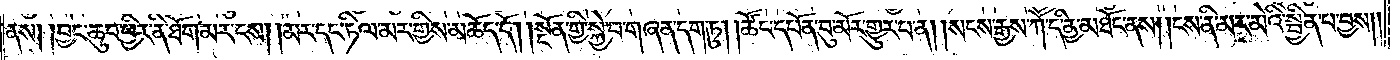ནས། །བྱང་ཆུབ་ཕྱིར་ནི་ཐོག་མར་ངས། །མར་དང་ཏིལ་མར་གྱིས་མཆོད་དོ། །སྔོན་གྱི་སྐྱེ་བ་གཞན་དག་ཏུ། །ཚོང་དཔོན་བུ་མོར་གྱུར་པ་ན། །སངས་རྒྱས་ཀཽ་དི་ནྱ་མཐོང་ནས། །ངས་ནི་མར་མེའི་སྦྱིན་པ་བྱས། །
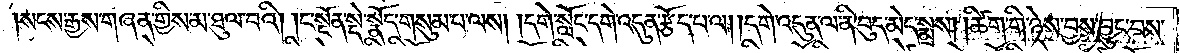སངས་རྒྱས་གཞན་གྱིས་མ་ཐུལ་བའི། །ང་སྔོན་སྡེ་སྣོད་གསུམ་པ་ལས། དགེ་སློང་དགེ་འདུན་རྩོད་པ་ལ། །དགེ་འདུན་ལ་ནི་བུད་མེད་སྨྲས། །ཚིག་གི་ཉེས་བྱས་བྱུང་བས་
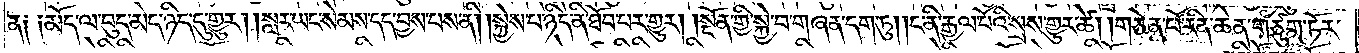ན༑ ༑མོད་ལ་བུད་མེད་ཉིད་དུ་གྱུར། །སླར་ཡང་སེམས་དད་བྱས་པས་ནི། །སྐྱེས་པ་ཉིད་ནི་ཐོབ་པར་གྱུར། །སྔོན་གྱི་སྐྱེ་བ་གཞན་དག་ཏུ། །ང་ནི་རྒྱལ་པོའི་སྲས་གྱུར་ཚེ། །གཅེན་པོ་རིན་ཆེན་གཙུག་ཏོར་
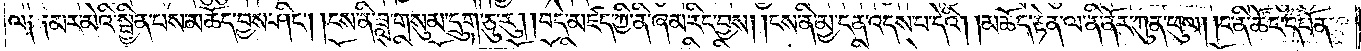ལ༑ ༑མར་མེའི་སྦྱིན་པས་མཆོད་བྱས་ཤིང༌། །ངས་ནི་ཟླ་གསུམ་དྲུག་ཅུ་རུ། །བདེ་མཛད་ཀྱི་ནི་ཞམ་རིང་བྱས། །ངས་ནི་མྱ་ངན་འདས་པ་དེའི། །མཆོད་རྟེན་ལ་ནི་ནོར་ཀུན་ཕུལ། །ང་ནི་ཚོང་དཔོན་
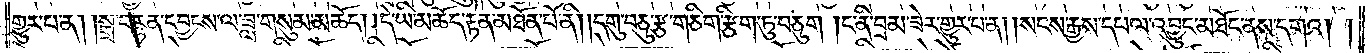གྱུར་པ་ན། །སྒྲ་བརྙན་དབྱངས་ལ་ཟླ་གསུམ་མཆོད། །དེ་ཡི་མཆོད་རྟེན་མཐོང་པོ་ནི། །དགུ་བཅུ་རྩ་གཅིག་རྩིག་ཏུ་བཅུག །ང་ནི་བྲམ་ཟེར་གྱུར་པ་ན། །སངས་རྒྱས་དཔལ་འབྱུང་མཐོང་ནས་དགའ། །
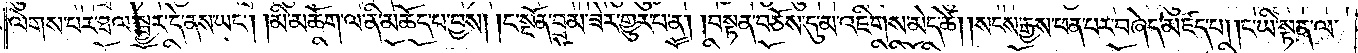ལེགས་པར་ཐལ་སྦྱར་དེ་ནས་ཡང༌། །མི་མཆོག་ལ་ནི་མཆོད་པ་བྱས། །ང་སྔོན་བྲམ་ཟེར་གྱུར་པ་ན། །བསྟན་བཅོས་དུ་མ་འཇིགས་མེད་ཚེ། །སངས་རྒྱས་ཕན་པར་བཞེད་མཛད་པ། །ང་ཡི་སྟན་ལ་
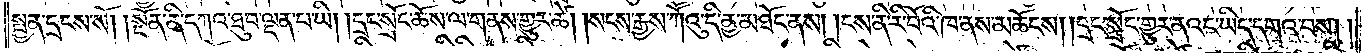སྤྱན་དྲངས་སོ། །སྔོན་ནི་དཀའ་ཐུབ་ལྡན་པ་ཡི། །དྲང་སྲོང་ཆོས་ལ་གནས་གྱུར་ཚེ། །སངས་རྒྱས་ཀཽའུ་དི་ནྱ་མཐོང་ནས། །ངས་ནི་རི་བོའི་ཁ་ནས་མཆོངས། །དྲང་སྲོང་གྱུར་ནའང་ཡིད་དགའ་བས༎
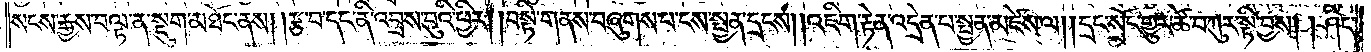སངས་རྒྱས་བལྟ་ན་སྡུག་མཐོང་ནས། །རྩ་བ་དང་ནི་འབྲས་བུའི་ཕྱིར། །བསྟི་གནས་བཞུགས་པ་ངས་སྤྱན་དྲངས། །འཇིག་རྟེན་འདྲེན་པ་སྤྱན་མཛེས་ལ། །དྲང་སྲོང་གྱུར་ཚེ་བཀུར་སྟི་བྱས། །ཤིང་
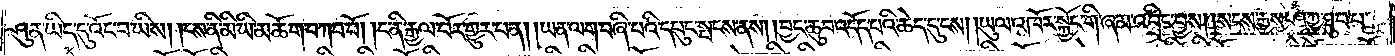ཤུན་ཡིད་དུ་འོང་བ་ཡིས། །ངས་ནི་མི་ཡི་མཆོག་བཀབ་བོ། །ང་ནི་རྒྱལ་པོར་གྱུར་པ་ན། །ཡན་ལག་བཞི་པའི་དཔུང་སྤངས་ནས། །བྱང་ཆུབ་འདོད་པའི་ཆེད་དུ་ངས། །ཡུལ་འཁོར་སྐྱོང་གི་ཞམ་འབྲིང་བྱས། །སངས་རྒྱས་ཤཱཀྱ་ཐུབ་པ་
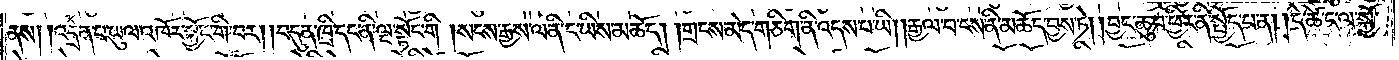ནས། །འདྲེན་པ་ཡུལ་འཁོར་སྐྱོང་གི་བར། །བདུན་ཁྲི་དང་ནི་ལྔ་སྟོང་གི། །སངས་རྒྱས་ལ་ནི་ང་ཡིས་མཆོད། །གྲངས་མེད་གཅིག་ནི་འདས་པ་ཡི། །རྒྱལ་བ་ངས་ནི་མཆོད་བྱས་ཏེ། །བྱང་ཆུབ་ཕྱིར་ནི་སྤྱོད་པ་ན། །དེ་ཚེ་ང་ལ་སྐྱོ་
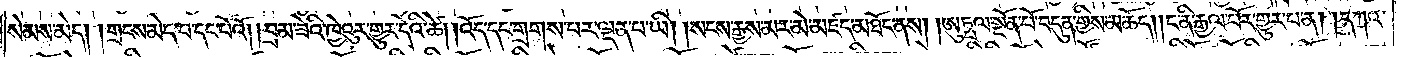སེམས་མེད། །གྲངས་མེད་པ་དང་པོའོ། །བྲམ་ཟེའི་ཁྱེའུར་གྱུར་དེའི་ཚེ། །འོད་དང་གྲགས་པར་ལྡན་པ་ཡི། །སངས་རྒྱས་མར་མེ་མཛད་མཐོང་ནས། །ཨུཏྤལ་སྔོན་པོ་བདུན་གྱིས་མཆོད། །ང་ནི་རྒྱལ་པོར་གྱུར་པ་ན། །དཀའ་
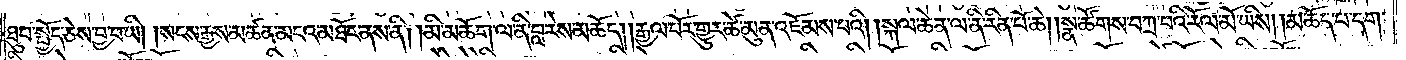ཐུབ་སྤྱོད་ཅེས་བྱ་བ་ཡི། །སངས་རྒྱས་མཚན་མངའ་མཐོང་ནས་ནི། །མི་མཆོག་ལ་ནི་བླ་རེས་མཆོད། །རྒྱལ་པོར་གྱུར་ཚེ་མུན་འཇོམས་པའི། །སྐལ་ཆེན་ལ་ནི་རིན་པོ་ཆེ། །སྣ་ཚོགས་བཀྲ་བའི་རོལ་མོ་ཡིས། །མཆོད་པ་དག་
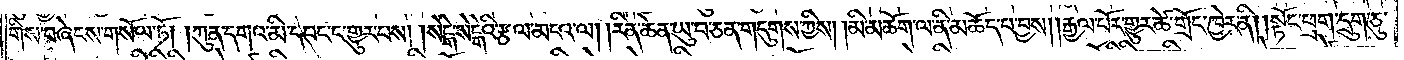གིས་བཞེངས་གསོལ་ཏོ། །ཀུན་དགའ་མི་དབང་གྱུར་པས། །སེངྒེ་སེངྒེའི་རྩལ་མངའ་ལ། །རིན་ཆེན་ཡུ་བ་ཅན་གདུགས་ཀྱིས། །མི་མཆོག་ལ་ནི་མཆོད་པ་བྱས། །རྒྱལ་པོར་གྱུར་ཚེ་གྲོང་ཁྱེར་ནི། །སྟོང་ཕྲག་དྲུག་ཅུ་
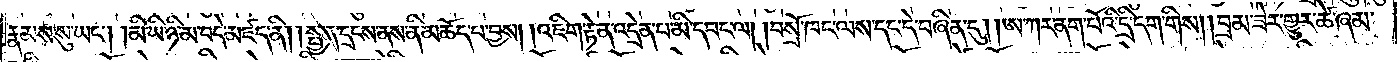རྣམས་སུ་ཡང༌། །མི་ཡི་ཉི་མ་བདེ་མཛད་ནི། །སྤྱན་དྲངས་ནས་ནི་མཆོད་པ་བྱས། །འཇིག་རྟེན་འདྲེན་པ་མི་དབང་ལ། །བསྲོ་ཁང་ལས་དང་དེ་བཞིན་དུ། །ཨ་ཀར་ནག་པོའི་དྲི་དག་གིས། །བྲམ་ཟེར་གྱུར་ཚེ་ཞམ་
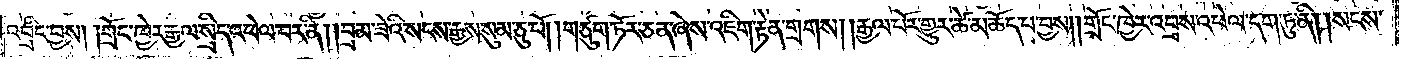འབྲིང་བྱས། །གྲོང་ཁྱེར་རྒྱལ་སྲིད་འཕེལ་བར་ནི། །བྲམ་ཟེའི་སངས་རྒྱས་སུམ་ཅུ་པོ། །གཙུག་ཏོར་ཅན་ཞེས་འཇིག་རྟེན་གྲགས། །རྒྱལ་པོར་གྱུར་ཚེ་མཆོད་པ་བྱས། །གྲོང་ཁྱེར་འབྲས་འཕེལ་དག་ཏུ་ནི། །སངས་
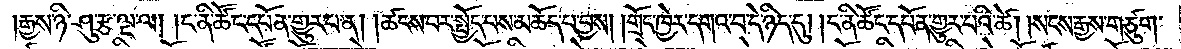།རྒྱས་ཉི་ཤུ་རྩ་ལྔ་ལ། །ང་ནི་ཚོང་དཔོན་གྱུར་པ་ན། །ཚངས་པར་སྤྱོད་པས་མཆོད་པ་བྱས། །གྲོང་ཁྱེར་དགའ་བ་དེ་ཉིད་དུ། །ང་ནི་ཚོང་དཔོན་གྱུར་པའི་ཚེ། །སངས་རྒྱས་གཙུག་
